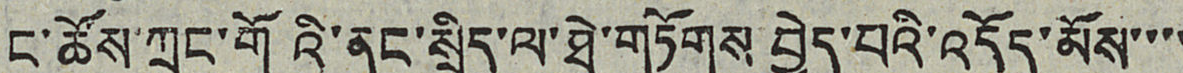ང་ཚོས་ཀྲུང་གོའི་ནང་སྲིད་ལ་ཐེ་གཏོགས བྱེད་པའི་འདོད་མོས་་་་
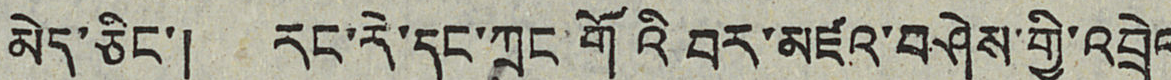མེད་ཅིང་། རང་རེ་དང་ཀྲུང་གོའི བར་མཛའ་བཤེས་གྱི་འབྲེལ
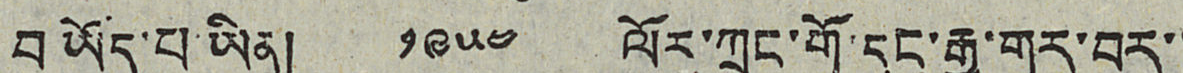བ ཡོད་པ་ཡིན། ༡༩༥༤ ལོར་ཀྲུང་གོ་དང་རྒྱ་གར་བར་་
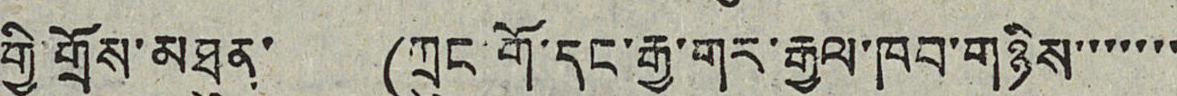གྱི་གྲོས་མཐུན་ (ཀྲུང་གོ་དང་རྒྱ་གར་རྒྱལ་ཁབ་གཉིས་་་་་་་
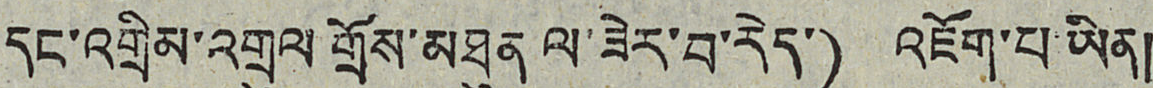དང་འགྲིམ་འགྲུལ གྲོས་མཐུན ལ་ཟེར་བ་རེད་) འཇོག་པ་ཡིན།
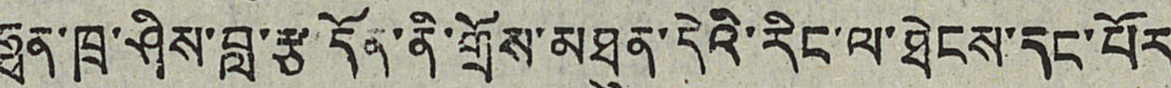ཧྥན་ཁྲ་ཤིས་བླ་རྩ་དོན་ནི་གྲོས་མཐུན་དེའི་རིང་ལ་ཐེངས་དང་པོར
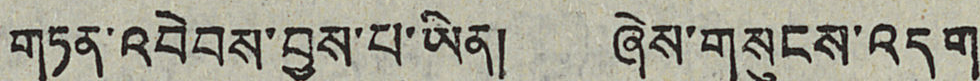གཏན་འབེབས་བྱས་པ་ཡིན། ཞེས་གསུངས་འདུག
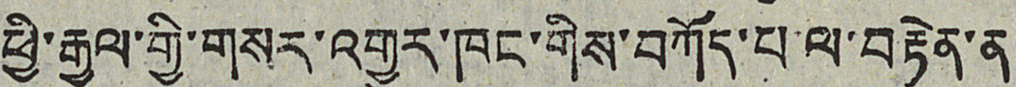ཕྱི་རྒྱལ་གྱི་གསར་འགྱུར་ཁང་གིས་བཀོད་པ་ལ་བརྟེན་ན།
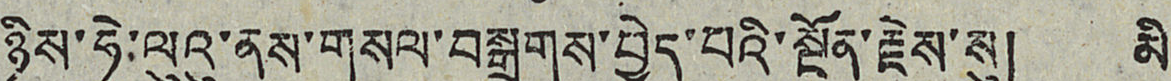ཉིས་ཧེ་ལུའུ་ནས་གསལ་བསྒྲགས་བྱེད་པའི་སྔོན་རྗེས་སུ། མི་
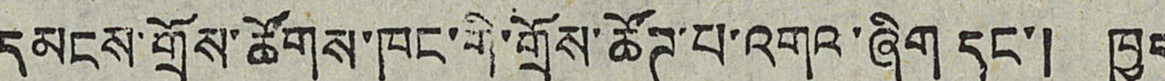དམངས་གྲོས་ཚོགས་ཁང་གི་གྲོས་ཚོཊ་པ་འགའ་ཞིག དང་། ཁྱད
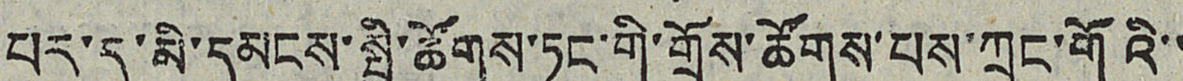པར་དུ་མི་དམངས་སྤྱི་ཚོགས་ཏང་གི་གྲོས་ཚོགས་པས་ཀྲུང་གོའི་་
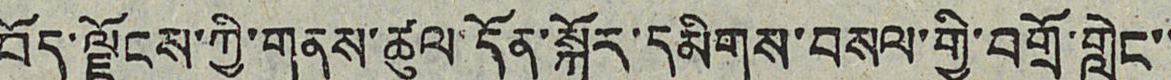བོད་ལྗོངས་ཀྱི་གནས་ཚུལ་དོན་སྐོར་དམིགས་བསལ་གྱི་བགྲོ་གླེང་་
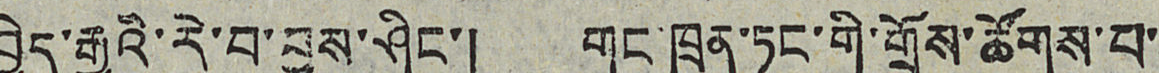བྱེད་རྒྱུའི་རེ་བ་བྱས་ཤིང་། གུང་ཁྲན་ཏང་གི་གྲོས་ཚོགས་པ་་
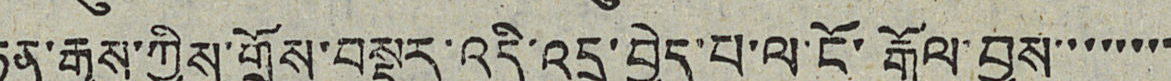ཏན་རྒྱས་ཀྱིས་གྲོས་བསྡུར་འདི་འདྲ་བྱེད་པ་ལ་ངོ་རྒོལ་བྱས་་་་་་་་
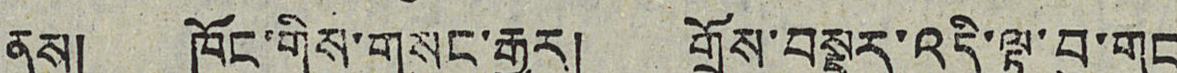ནས། ཁོང་གིས་གསུང་རྒྱུར། གྲོས་བསྡུར་འདི་ལྟ་བུ་གང་
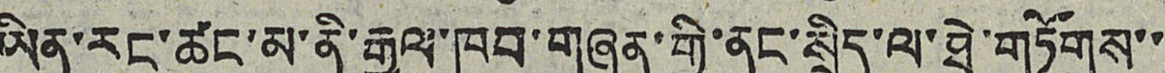ཡིན་རུང་ཚང་མ་ནི་རྒྱལ་ཁབ་གཞན་གྱི་ནང་སྲིད་ལ་ཐེ་གཏོགས་་་
